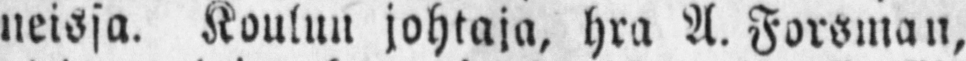neissa. Koulun johtaja, hra A. Forsman,
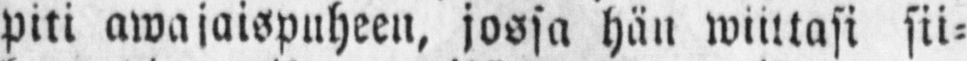piti awajaispuheen, jossa hän wiittäsi sii-
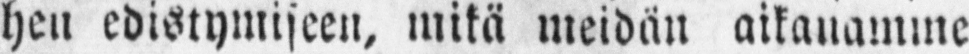heu edistymiseen, mikä meidän aikanamme
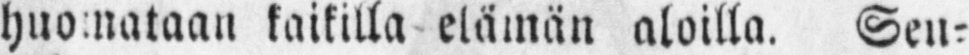huomataan kaikilla elämän aloilla. Sen-
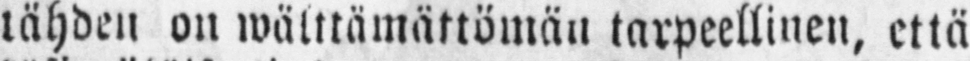tähden on wälttämättömän tarpeellinen, että
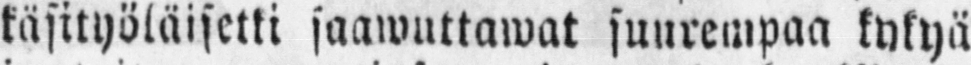käsityöläisetki saawuttawat suurempaa kykyä
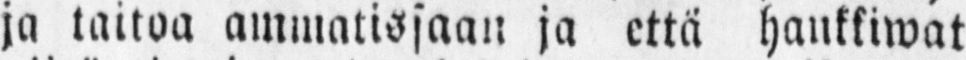ja taitoa ammatissaan ja että hankkiwat
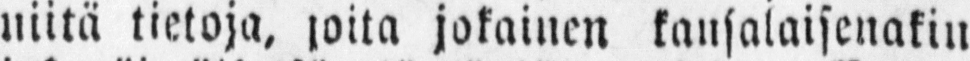niitä tietoja, joita jokainen kansalaisenakin
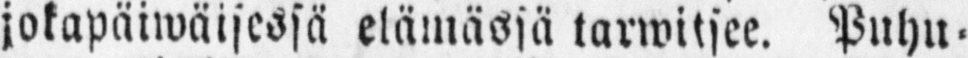jokapäiwäisessä elämässä tarwiksee. Puhu-
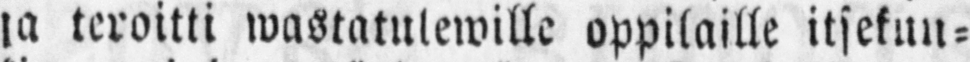ja teroitti wastatulewille oppilaille itsekun-
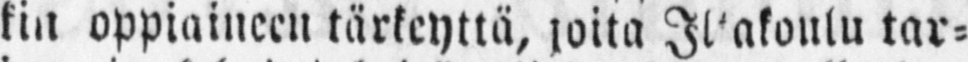kin oppiaineen tärkeyttä, joita Iltakonlu tar-
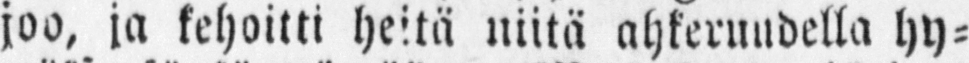joo, ja kehoitti heitä niitä ahkeruudella hy-
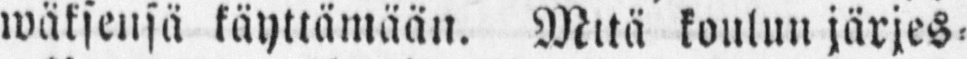wäksensä käyttämään. Mitä koulun järjes-
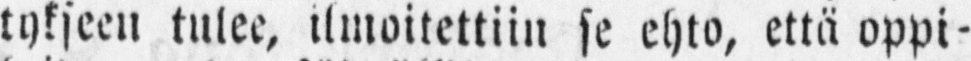tykseen tulee, ilmoitettiin se ehto, että oppi-
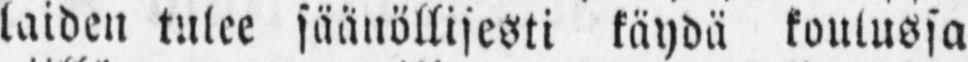laiden tulee säänöllisesti käydä koulussa
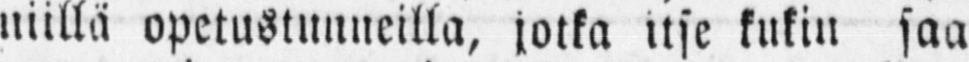niillä opetustunneilla, jotka itse kukin saa
